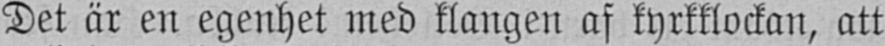Det är en egenhet med klangen af kyrkklockan, att
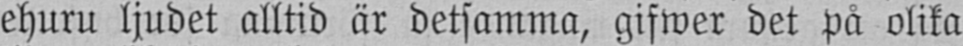ehuru ljudet alltid är detsamma, gifwer det på olika
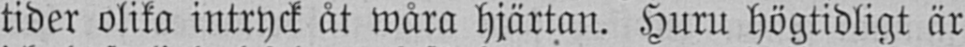tider olika intryck åt wåra hjärtan. Huru högtidligt är
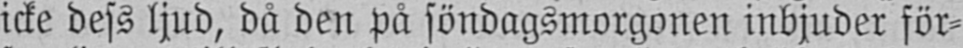icke dess ljud, då den på söndagsmorgonen inbjuder för-
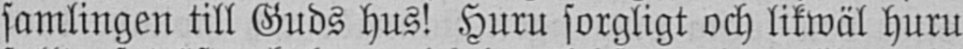samlingen till Guds hus! Huru sorgligt och likwäl huru
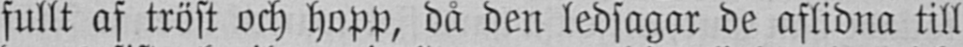fullt af tröst och hopp, då den ledsagar de aflidna till
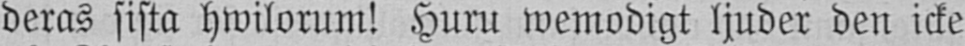deras sista hwilorum! Huru wemodigt ljuder den icke
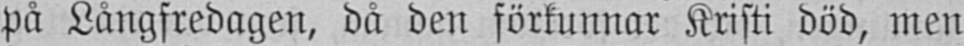på Långfredagen, då den förkunnar Kristi död, men
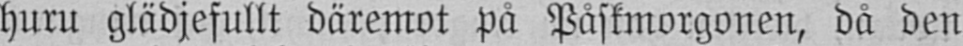huru glädjefullt däremot på Påskmorgonen, då den
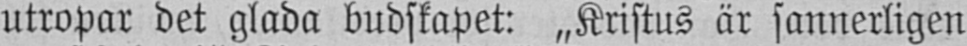utropar det glada budskapet: „Kristus är sannerligen
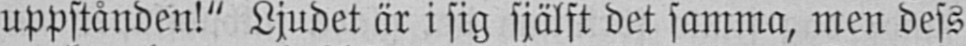uppstånden!" Ljudet är i sig själft det samma, men dess
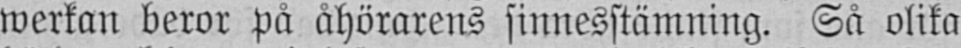werkan beror på åhörarens sinnesstämning. Så olika
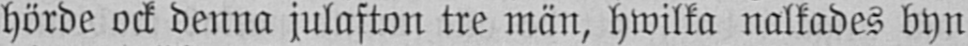hörde ock denna julafton tre män, hwilka nalkades byn
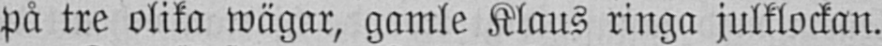på tre olika wägar, gamle Klaus ringa julklockan.
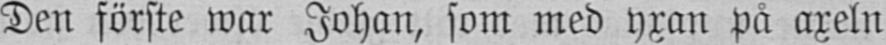Den förste war Johan, som med yxan på axeln
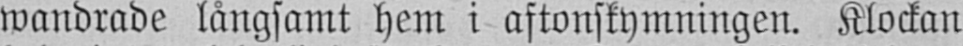wandrade långsamt hem i aftonskymningen. Klockan
